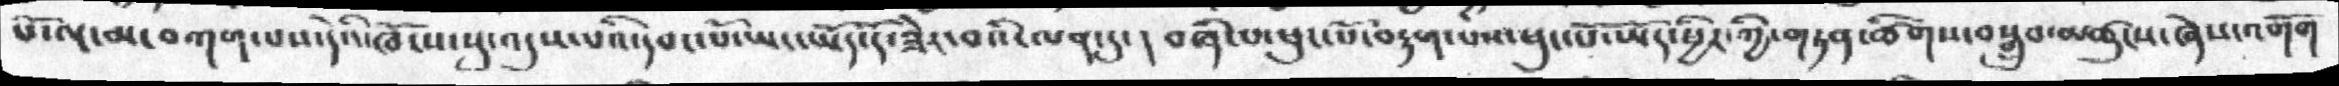པོ་ལྔ་མ་བཀག་པས་དེའི་ཁོངས་སུ་འདུས་པའུ་བདང་པོ་ཡང་ཡོད་དོ་ཟེར་བའི་ལན་དུ་། བཞི་པ་ཕུང་པོ་བརྟག་པས་ཕུང་པོ་ཡོད་ཕྱིར་ཀྱི་གཏན་ཚིགས་བསྒྲུབ་མཚུངས་ཞེས་འགོག
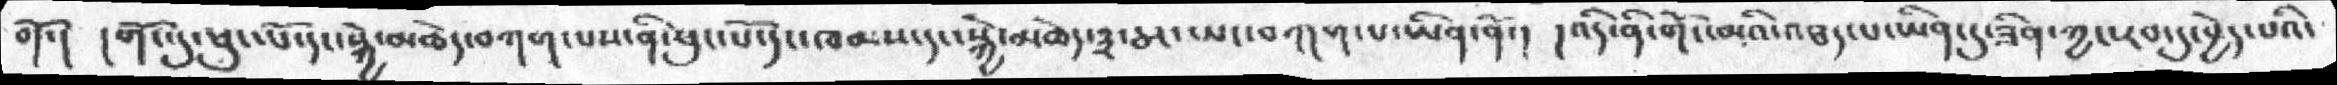གོ་།  ། གོང་དུ་ཕུང་པོ་དང་སྐྱེ་མཆེད་བཀག་པས་ནི་ཕུང་པོ་དང་ཁམས་དང་སྐྱེ་མཆེད་༣་ཅར་ཡང་བཀག་པ་ཡིན་ནོ་།  ། འདི་ནི་གོང་མའི་འཐད་པ་ཡིན་དུ་ཟིན་ཀྱང་རབ་དུ་བྱེད་པའི་
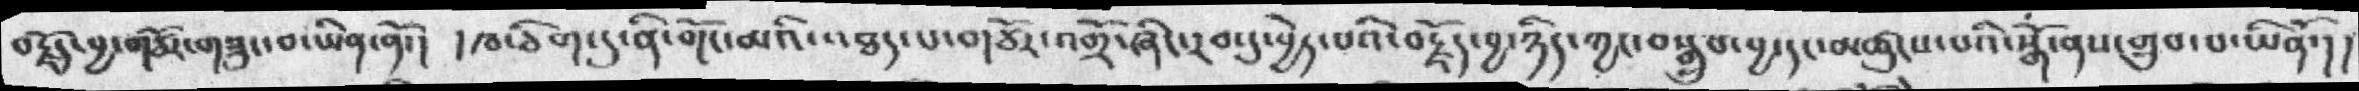བརྗོད་བྱ་གཙོར་གཟུང་བ་ཡིན་ནོ་།  ། ཁ་ཅིག་དུ་ནི་གོང་མའི་འཐད་པ་གཙོར་འགྲོ་ཞིང་རབ་དུ་བྱེད་པའི་བརྗོད་བྱ་ཉིད་ཀྱང་བསྒྲུབ་བྱ་དང་མཚུངས་པའི་སྒོ་ནས་གྲུབ་པ་ཡིནོ་།།
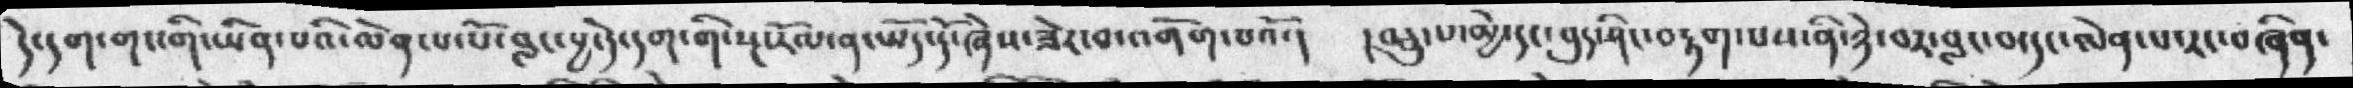དེ་དག་གང་གི་ཡིན་པའི་ལེན་པ་པོ་བླང་བྱ་དེ་དག་གི་སྔ་རོལ་ན་ཡོད་དོ་ཞེས་ཟེར་བ་འགོག་པའོ་། །བཅུ་པ་མྱེ་དང་བུད་ཤིང་བརྟག་པས་ནི་ཉེ་བར་བླང་བ་དང་ལེན་པ་རང་བཞིན་
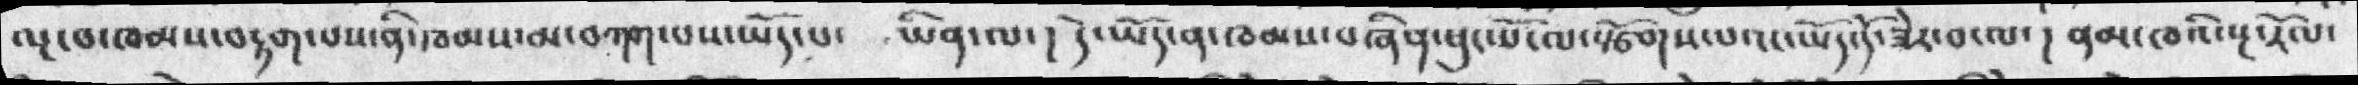ལྔ་བ་ཁམས་བརྟག་པས་ནི་ཁམས་མ་བཀག་པས་ཡོད་པ་   ཡིན་ལ་། དེ་ཡོད་ན་ཁམས་བཞིན་ཕུང་པོ་ལ་སྩོགས་པའང་ཡོད་དོ་ཟེར་བ་ལ་། ནམ་མཁའི་སྔ་རོལ་
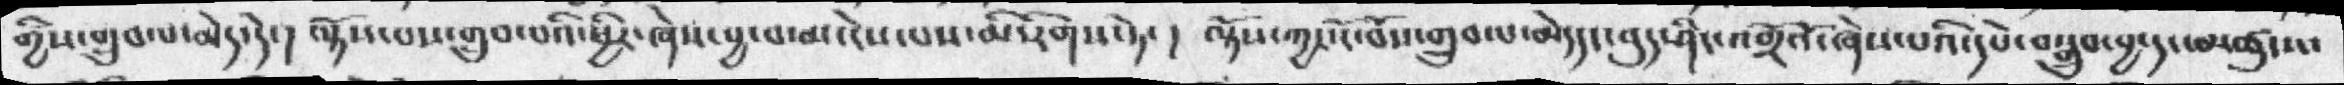གྱིས་གྲུབ་པ་མེད་དེ་། ལྟོས་པས་གྲུབ་པའི་ཕྱིར་ཞེས་བྱ་བ་མ་ངེས་པས་མི་རིགས་ཏེ་། ལྟོས་ཀྱང་ངོ་བོས་གྲུབ་པ་མེདདང་བུད་ཤིང་འགྲོའོ་ཞེས་པའི་དཔེ་བསྒྲུབ་བྱ་དང་མཚུངས་
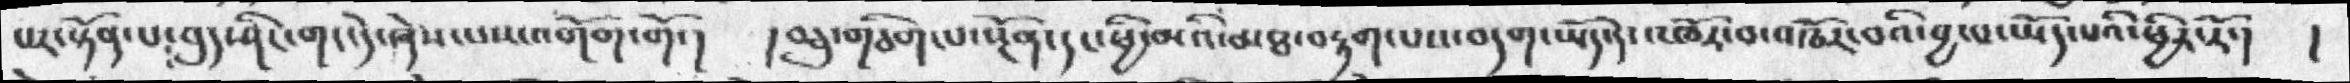པར་སྟོན་པ་བུད་ཤིང་གང་དེ་ཞེས་པས་འགོག་གོ་།  །བཅུ་གཅིག་པ་སྔོན་དང་ཕྱི་མའི་མཐ་བརྟག་པས་བདག་ཡོད་དེ་འཁོར་བ་འཁོར་བའི་བྱ་བ་ཡོད་པའི་ཕྱིར་རོ་། །
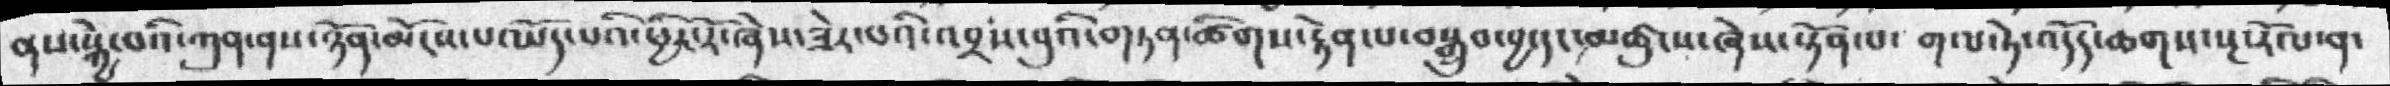ནས་སྐྱེ་བའི་ཀུན་ནས་ཉོན་མོངས་པ་ཡོད་པའི་ཕྱིར་རོ་ཞེས་ཟེར་བའི་འབྲས་བུའི་གཏན་ཞིགས་རྟེན་པ་བསྒྲུབ་བྱ་དང་མཚུངས་ཞེས་སྟོན་པ་ གལ་ཏེ་འདོད་ཆགས་སྔ་རོལ་ན་
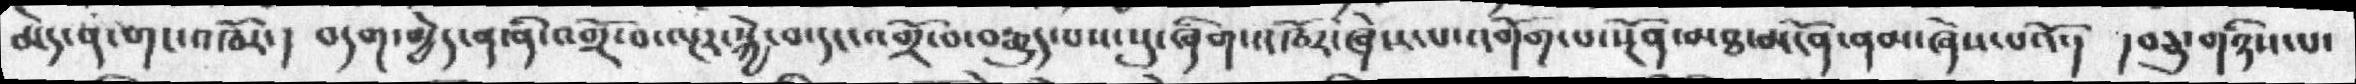མེད་ན་གང་འཁོར་།  བདག་མྱེད་ན་ནི་འགྲོ་བ་ལྔར་སྐྱེ་བ་དང་འགྲོ་བ་བརྒྱུད་པས་སུ་ཞིག་འཁོར་ཞེས་པ་འགོག་པ་སྔོན་མཐ་མངོན་ནམ་ཞེས་པའོ་། །བཅུ་གཉིས་པ་
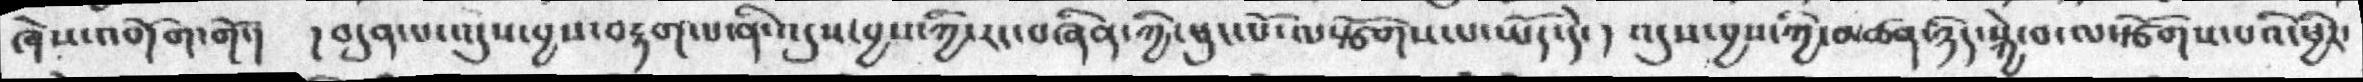ཞེས་འགོག་གོ་།  །བདུན་པ་འདུས་བྱས་བརྟག་པ་ནི་འདུས་བྱས་ཀྱི་རང་བཞིན་ཀྱི་ཕུང་པོ་ལསྩོགས་པ་ཡོད་དེ་།  འདུས་བྱས་ཀྱི་མཚན་ཉིད་སྐྱེ་བ་ལསྩོགས་པའི་ཕྱིར་
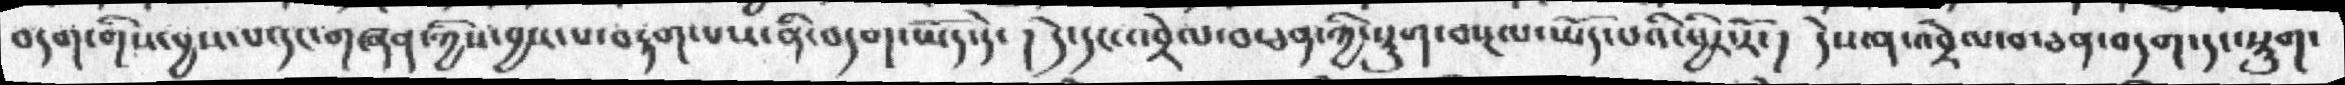བདག་གིས་བྱས་པ་དང་གཞན་ཀྱིས་བྱས་པ་བརྟག་པས་ནི་བདག་ཡོད་དེ་  ། དེ་དང་འབྲེལ་བ་ཅན་ཀྱི་སྡུག་བསྔལ་ཡོད་པའི་ཕྱིར་རོ་།   དེས་ན་འབྲེལ་བ་ཅན་བདག་དང་སྡུག་
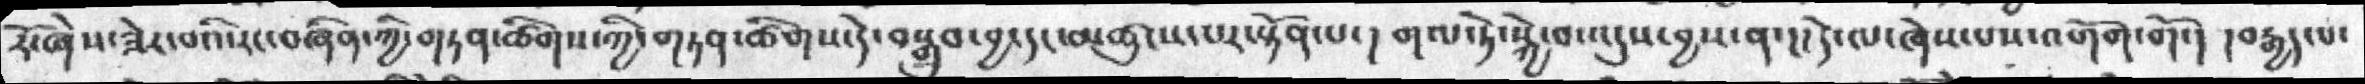རོ་ཞེས་ཟེར་པའི་རང་བཞིན་ཀྱི་གཏན་ཚིགས་དེ་བསྒྲུབ་བྱ་དང་མཚུངས་པར་སྟོན་པ་ ། གལ་ཏེ་སྐྱེ་བ་འདུས་བྱས་ན་།། དེ་ལ་ཞེས་པས་འགོག་གོ་།  བརྒྱད་པ་
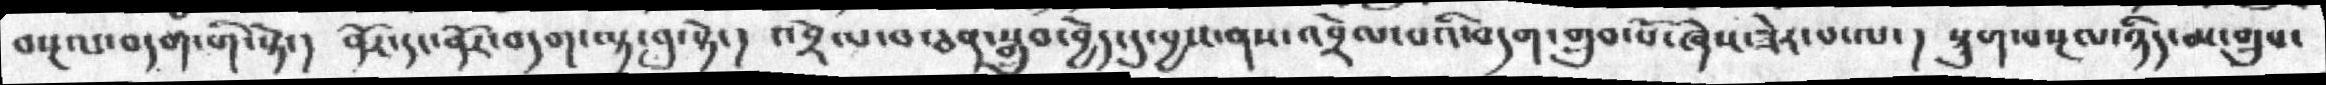བསྔལ་བདག་གི་སྟེ་།   ནོར་དང་ནོར་བདག་ལྟ་བུ་སྟེ་།  འབྲེལ་བ་ཅན་སྒྲུབ་བྱེད་དུ་བྱས་ནས་འབྲེལ་པའི་བདག་གྲུབ་པོ་ཞེས་ཟེར་པ་ལ་ ། སྡུག་བསྔལ་ཉིད་མ་གྲུབ་
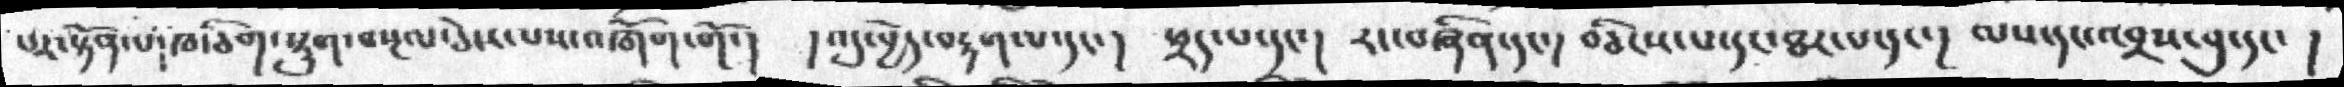པར་སྟོན་པ། ཁ་ཅིག་སྡུག་བསྔལ་ཅེས་པས་འགོག་གོ་།   ། འདུ་བྱེད་བརྟག་པ་དང་།  ཕྲད་པ་དང་།  རང་བཞིན་དང་། བཅིངས་པ་དང་ཐར་པ་དང་། ལས་དང་འབྲས་བུ་དང་  །
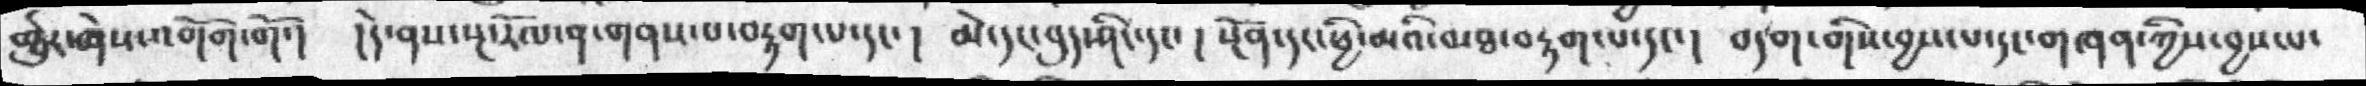བཅུར་ཞེས་འགོག་གོ་།  །དེ་ནས་སྔ་རོལ་ན་གནས་པ་བརྟག་པ་དང་།  མེ་དང་བུད་ཤིང་དང་ ། སྔོན་དང་ཕྱི་མའི་མཐའ་བརྟག་པ་དང་ ། བདག་གིས་བྱས་པ་དང་གཞན་ཀྱིས་བྱས་པ་
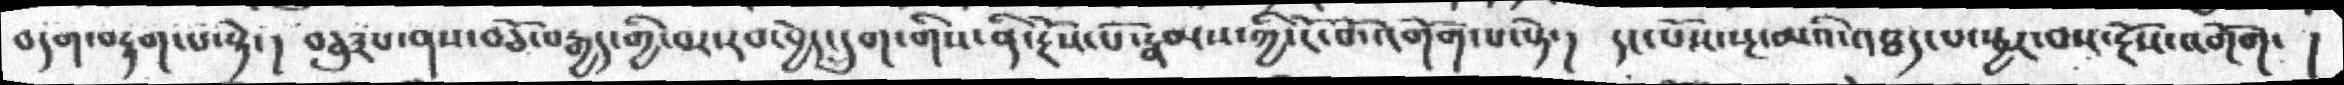བདག་བརྟག་པ་སྟེ་ ། བཅུ༣པ་ནས་བཅོ་བརྒྱད་གྱི་བར་རབ་བྱེད་དྲུག་གིས་ནི་རྔོས་པོ་རྣམས་ཀྱི་ངོ་བོ་འགོག་པ་སྟེ་།  དང་པོས་སྔ་མའི་འཐད་པ་སྦྱར་བས་རྔོས་འགོག་ །
